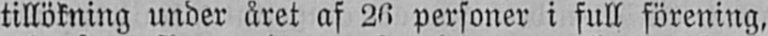tillökning under året af 26 personer i full förening,
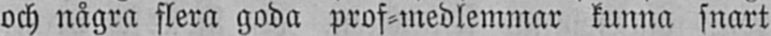och några flera goda prof-medlemmar kunna snart
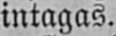intagas.
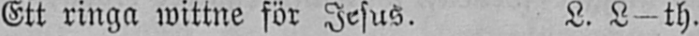Ett ringa wittne för Jesus. L. L-th.
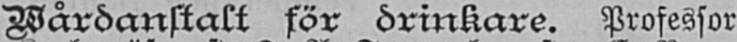Wårdanstalt för drinkare. Professor
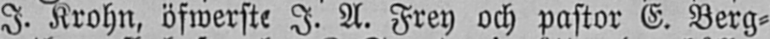I. Krohn, öfwerste I. A. Frey och pastor E. Berg-
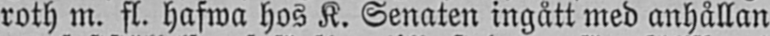roth m. fl. hafwa hos K. Senaten ingått med anhållan
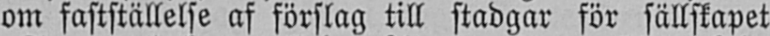om fastställelse af förslag till stadgar för sällskapet
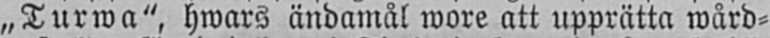„Turwa", hwars ändamål wore att upprätta wård-
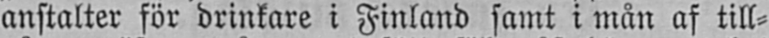anstalter för drinkare i Finland samt i mån af till-
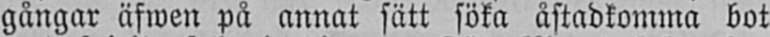gångar äfwen på annat sätt söka åstadkomma bot
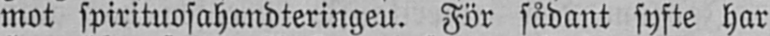mot spirituosahandteringeu. För sådant syfte har
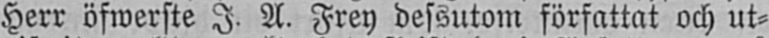Herr öfwerste I. A. Frey dessutom författat och ut-
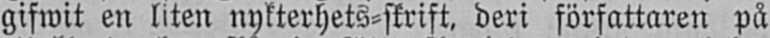gifwit en liten nykterhets-skrift, deri författaren på
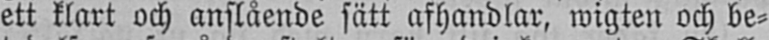ett klart och anslående sätt afhandlar, wigten och be-
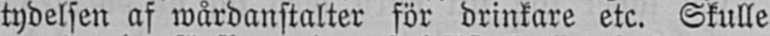tydelsen af wårdanstalter för drinkare etc. Skulle
